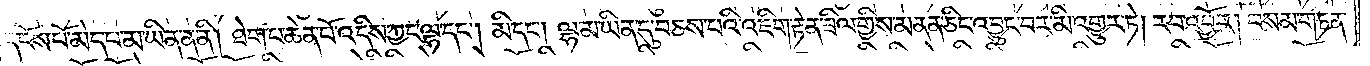དངོས་པོ་མེད་པ་མ་ཡིན་ན་ནི། ཐེག་པ་ཆེན་པོ་འདིས་ཀྱང་ལྷ་དང༌། མི་དང༌། ལྷ་མ་ཡིན་དུ་བཅས་པའི་འཇིག་རྟེན་ཟིལ་གྱིས་མནན་ཅིང་འབྱུང་བར་མི་འགྱུར་ཏེ། རབ་འབྱོར། བསམ་གཏན་
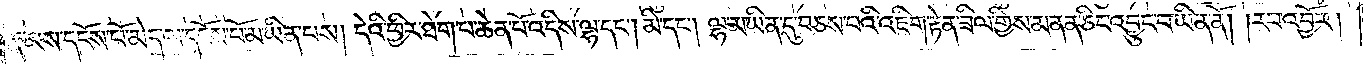རྣམས་དངོས་པོ་མེད་ལ་དངོས་པོ་མ་ཡིན་པས། དེའི་ཕྱིར་ཐེག་པ་ཆེན་པོ་འདིས་ལྷ་དང༌། མི་དང༌། ལྷ་མ་ཡིན་དུ་བཅས་པའི་འཇིག་རྟེན་ཟིལ་གྱིས་མནན་ཅིང་འབྱུང་བ་ཡིན་ནོ། །རབ་འབྱོར།
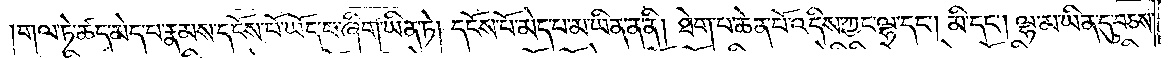གལ་ཏེ་ཚད་མེད་པ་རྣམས་དངོས་པོ་ཡོད་པ་ཞིག་ཡིན་ཏེ། དངོས་པོ་མེད་པ་མ་ཡིན་ན་ནི། ཐེག་པ་ཆེན་པོ་འདིས་ཀྱང་ལྷ་དང༌། མི་དང༌། ལྷ་མ་ཡིན་དུ་བཅས་
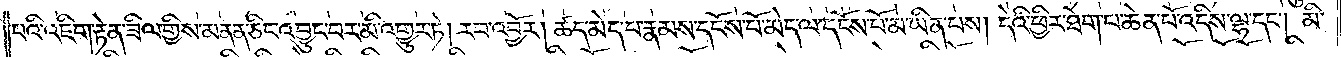པའི་འཇིག་རྟེན་ཟིལ་གྱིས་མནན་ཅིང་འབྱུང་བར་མི་འགྱུར་ཏེ། རབ་འབྱོར། ཚད་མེད་པ་རྣམས་དངོས་པོ་མེད་ལ་དངོས་པོ་མ་ཡིན་པས། དེའི་ཕྱིར་ཐེག་པ་ཆེན་པོ་འདིས་ལྷ་དང༌། མི་
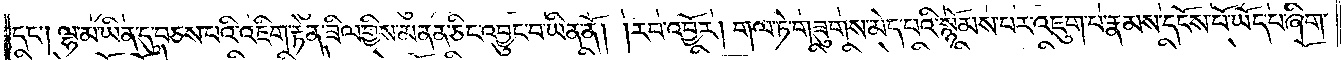དང༌། ལྷ་མ་ཡིན་དུ་བཅས་པའི་འཇིག་རྟེན་ཟིལ་གྱིས་མནན་ཅིང་འབྱུང་བ་ཡིན་ནོ། །རབ་འབྱོར། གལ་ཏེ་གཟུགས་མེད་པའི་སྙོམས་པར་འཇུག་པ་རྣམས་དངོས་པོ་ཡོད་པ་ཞིག་
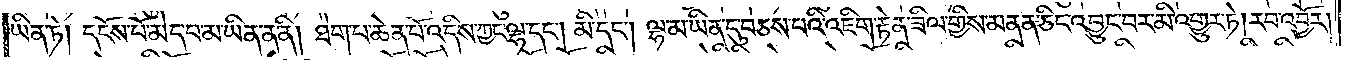ཡིན་ཏེ། དངོས་པོ་མེད་པ་མ་ཡིན་ན་ནི། ཐེག་པ་ཆེན་པོ་འདིས་ཀྱང་ལྷ་དང༌། མི་དང༌། ལྷ་མ་ཡིན་དུ་བཅས་པའི་འཇིག་རྟེན་ཟིལ་གྱིས་མནན་ཅིང་འབྱུང་བར་མི་འགྱུར་ཏེ། རབ་འབྱོར།
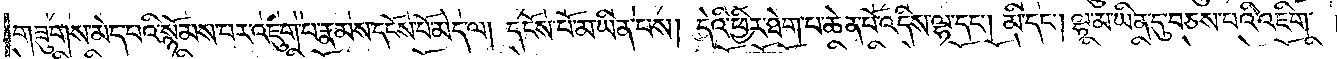གཟུགས་མེད་པའི་སྙོམས་པར་འཇུག་པ་རྣམས་དངོས་པོ་མེད་ལ། དངོས་པོ་མ་ཡིན་པས། དེའི་ཕྱིར་ཐེག་པ་ཆེན་པོ་འདིས་ལྷ་དང༌། མི་དང༌། ལྷ་མ་ཡིན་དུ་བཅས་པའི་འཇིག་
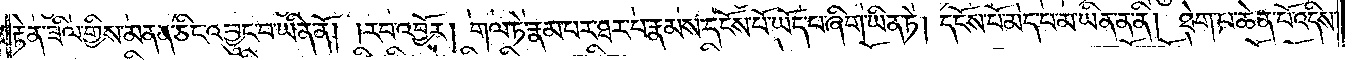རྟེན་ཟིལ་གྱིས་མནན་ཅིང་འབྱུང་བ་ཡིན་ནོ། །རབ་འབྱོར། གལ་ཏེ་རྣམ་པར་ཐར་པ་རྣམས་དངོས་པོ་ཡོད་པ་ཞིག་ཡིན་ཏེ། དངོས་པོ་མེད་པ་མ་ཡིན་ན་ནི། ཐེག་པ་ཆེན་པོ་འདིས་
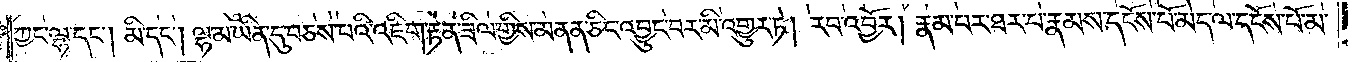ཀྱང་ལྷ་དང༌། མི་དང༌། ལྷ་མ་ཡིན་དུ་བཅས་པའི་འཇིག་རྟེན་ཟིལ་གྱིས་མནན་ཅིང་འབྱུང་བར་མི་འགྱུར་ཏེ། རབ་འབྱོར། རྣམ་པར་ཐར་པ་རྣམས་དངོས་པོ་མེད་ལ་དངོས་པོ་མ་
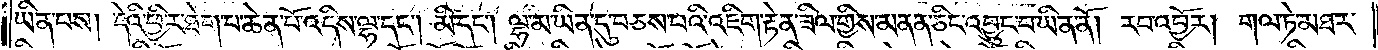ཡིན་པས། དེའི་ཕྱིར་ཐེག་པ་ཆེན་པོ་འདིས་ལྷ་དང༌། མི་དང༌། ལྷ་མ་ཡིན་དུ་བཅས་པའི་འཇིག་རྟེན་ཟིལ་གྱིས་མནན་ཅིང་འབྱུང་བ་ཡིན་ནོ། །རབ་འབྱོར། གལ་ཏེ་མཐར་
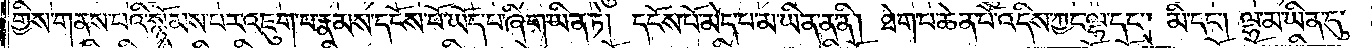གྱིས་གནས་པའི་སྙོམས་པར་འཇུག་པ་རྣམས་དངོས་པོ་ཡོད་པ་ཞིག་ཡིན་ཏེ། དངོས་པོ་མེད་པ་མ་ཡིན་ན་ནི། ཐེག་པ་ཆེན་པོ་འདིས་ཀྱང་ལྷ་དང༌། མི་དང༌། ལྷ་མ་ཡིན་དུ་
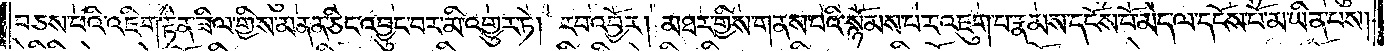བཅས་པའི་འཇིག་རྟེན་ཟིལ་གྱིས་མནན་ཅིང་འབྱུང་བར་མི་འགྱུར་ཏེ། རབ་འབྱོར། མཐར་གྱིས་གནས་པའི་སྙོམས་པར་འཇུག་པ་རྣམས་དངོས་པོ་མེད་ལ་དངོས་པོ་མ་ཡིན་པས།
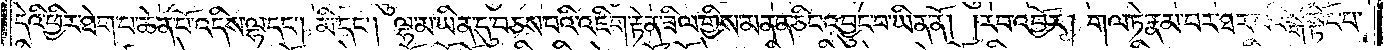དེའི་ཕྱིར་ཐེག་པ་ཆེན་པོ་འདིས་ལྷ་དང༌། མི་དང༌། ལྷ་མ་ཡིན་དུ་བཅས་པའི་འཇིག་རྟེན་ཟིལ་གྱིས་མནན་ཅིང་འབྱུང་བ་ཡིན་ནོ། །རབ་འབྱོར། གལ་ཏེ་རྣམ་པར་ཐར་པའི་སྒོ་སྟོང་པ་
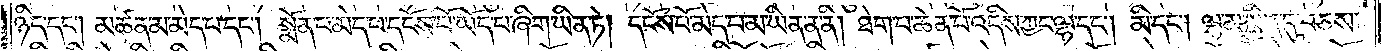ཉིད་དང༌། མཚན་མ་མེད་པ་དང༌། སྨོན་པ་མེད་པ་དངོས་པོ་ཡོད་པ་ཞིག་ཡིན་ཏེ། དངོས་པོ་མེད་པ་མ་ཡིན་ན་ནི། ཐེག་པ་ཆེན་པོ་འདིས་ཀྱང་ལྷ་དང༌། མི་དང༌། ལྷ་མ་ཡིན་དུ་བཅས་
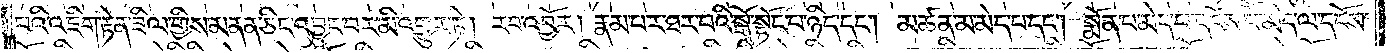པའི་འཇིག་རྟེན་ཟིལ་གྱིས་མནན་ཅིང་འབྱུང་བར་མི་འགྱུར་ཏེ། རབ་འབྱོར། རྣམ་པར་ཐར་པའི་སྒོ་སྟོང་པ་ཉིད་དང༌། མཚན་མ་མེད་པ་དང༌། སྨོན་པ་མེད་པ་དངོས་པོ་མེད་ལ་དངོས་
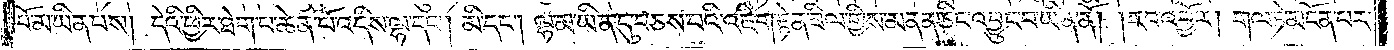པོ་མ་ཡིན་པས། དེའི་ཕྱིར་ཐེག་པ་ཆེན་པོ་འདིས་ལྷ་དང༌། མི་དང༌། ལྷ་མ་ཡིན་དུ་བཅས་པའི་འཇིག་རྟེན་ཟིལ་གྱིས་མནན་ཅིང་འབྱུང་བ་ཡིན་ནོ། །རབ་འབྱོར། གལ་ཏེ་མངོན་པར་
